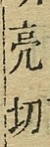亮切
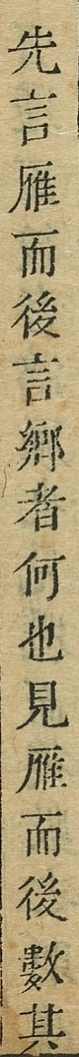先言雁而後言鄉者何也見雁而後數其
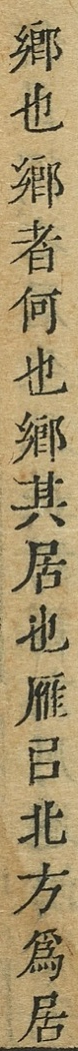鄉也鄉者何也鄉其居也雁以北方為居
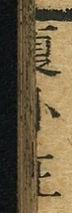夏小正
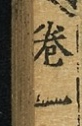卷一
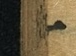一
